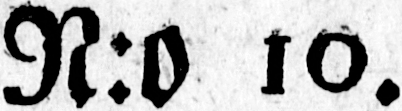N:o 10.
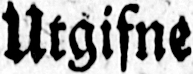Utgifne
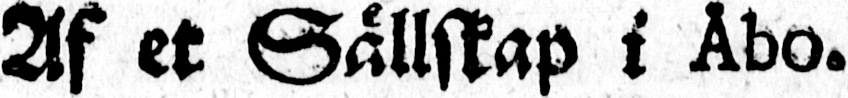Af et Sällskap i Åbo.
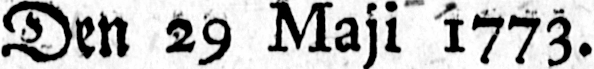Den 29 Maji 1773.
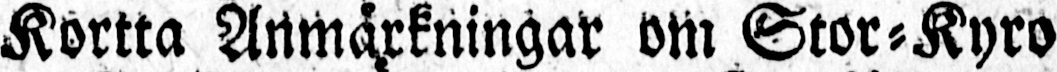Kortta Anmärkningar om Stor-Kyro
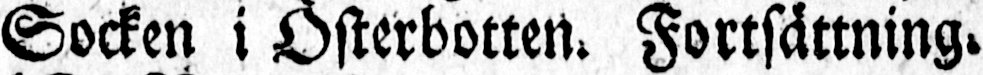Socken i Österbotten. Fortsättning.
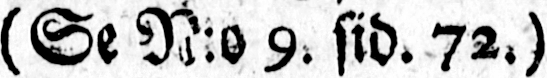(Se N:o 9. sid. 72.)
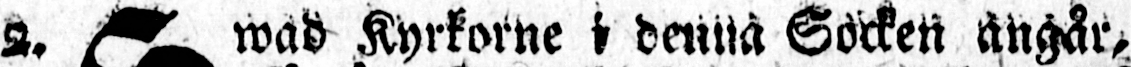2. Hwad Kyrkorne i denna Socken angår,
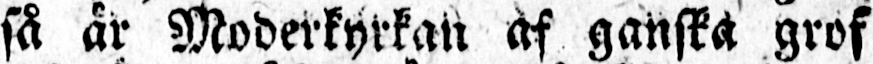så är Moderkyrkan af ganska grof
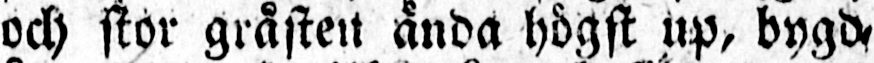ock stor gråsten ända högst up, bygd
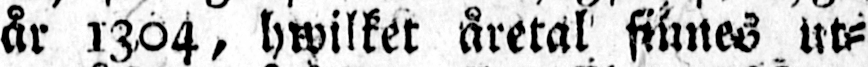år 1304, hwilket åretal finnes ut-
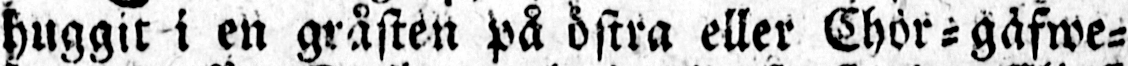huggit i en gråsten på östra eller Chor-gafwe-
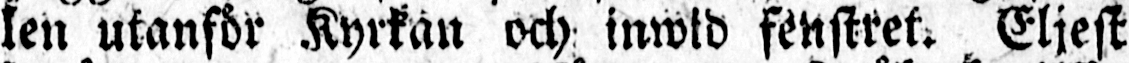len utanför Kyrkan och inwid fenstret. Eljest
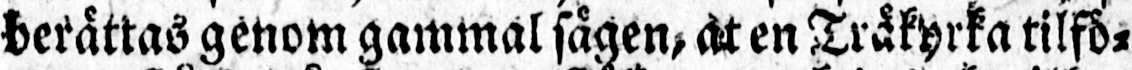berättas genom gammal sägen, at en Träkyrka tilfö-
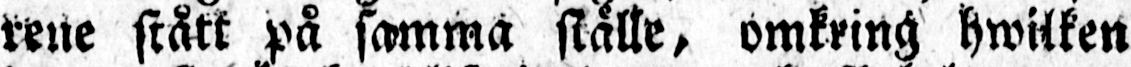rene stått på samma ställe, omkring hwilken
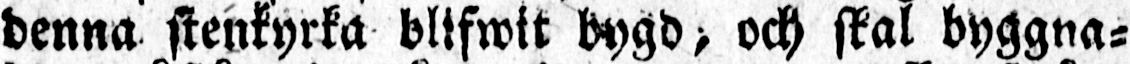denna stenkyrka blifwit bygd, och skal byggna-
